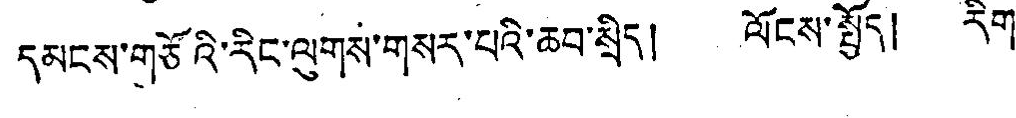དམངས་གཙོའི་རིང་ལུགས་གསར་པའི་ཆབ་སྲིད། ལོངས་སྤྱོད། རིག་
